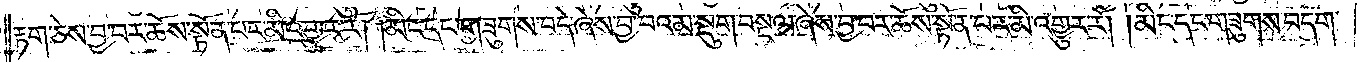རྟག་ཅེས་བྱ་བར་ཆོས་སྟོན་པར་མི་འགྱུར་རོ། །མིང་དང་གཟུགས་བདེ་ཞེས་བྱ་བའམ་སྡུག་བསྔལ་ཞེས་བྱ་བར་ཆོས་སྟོན་པར་མི་འགྱུར་རོ། །མིང་དང་གཟུགས་བདག་
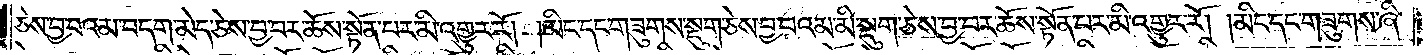ཅེས་བྱ་བའམ་བདག་མེད་ཅེས་བྱ་བར་ཆོས་སྟོན་པར་མི་འགྱུར་རོ། །མིང་དང་གཟུགས་སྡུག་ཅེས་བྱ་བའམ་མི་སྡུག་ཅེས་བྱ་བར་ཆོས་སྟོན་པར་མི་འགྱུར་རོ། །མིང་དང་གཟུགས་ཞི་
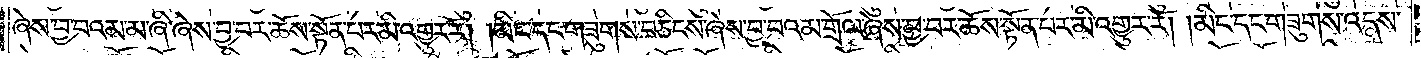ཞེས་བྱ་བའམ་མ་ཞི་ཞེས་བྱ་བར་ཆོས་སྟོན་པར་མི་འགྱུར་རོ། །མིང་དང་གཟུགས་བཅིངས་ཞེས་བྱ་བའམ་གྲོལ་ཞེས་བྱ་བར་ཆོས་སྟོན་པར་མི་འགྱུར་རོ། །མིང་དང་གཟུགས་འདས་
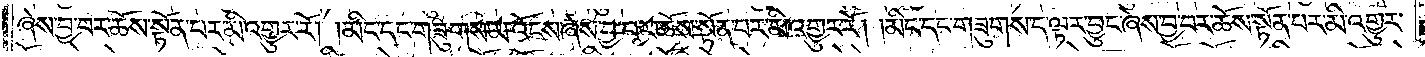ཞེས་བྱ་བར་ཆོས་སྟོན་པར་མི་འགྱུར་རོ། །མིང་དང་གཟུགས་མ་འོངས་ཞེས་བྱ་བར་ཆོས་སྟོན་པར་མི་འགྱུར་རོ། །མིང་དང་གཟུགས་ད་ལྟར་བྱུང་ཞེས་བྱ་བར་ཆོས་སྟོན་པར་མི་འགྱུར་
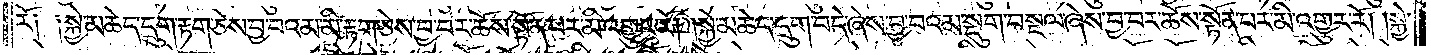རོ༑ ༑སྐྱེ་མཆེད་དྲུག་རྟག་ཅེས་བྱ་བའམ་མི་རྟག་ཅེས་བྱ་བར་ཆོས་སྟོན་པར་མི་འགྱུར་རོ། །སྐྱེ་མཆེད་དྲུག་བདེ་ཞེས་བྱ་བའམ་སྡུག་བསྔལ་ཞེས་བྱ་བར་ཆོས་སྟོན་པར་མི་འགྱུར་རོ། །སྐྱེ་
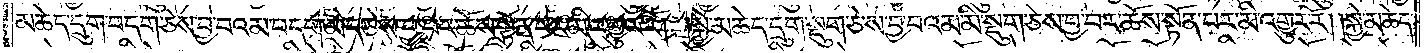མཆེད་དྲུག་བདག་ཅེས་བྱ་བའམ་བདག་མེད་ཅེས་བྱ་བར་ཆོས་སྟོན་པར་མི་འགྱུར་རོ། །སྐྱེ་མཆེད་དྲུག་སྡུག་ཅེས་བྱ་བའམ་མི་སྡུག་ཅེས་བྱ་བར་ཆོས་སྟོན་པར་མི་འགྱུར་རོ། །སྐྱེ་མཆེད་
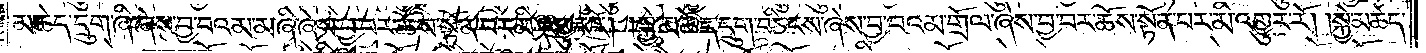མཆེད་དྲུག་ཞི་ཞེས་བྱ་བའམ་མ་ཞི་ཞེས་བྱ་བར་ཆོས་སྟོན་པར་མི་འགྱུར་རོ། །སྐྱེ་མཆེད་དྲུག་བཅིངས་ཞེས་བྱ་བའམ་གྲོལ་ཞེས་བྱ་བར་ཆོས་སྟོན་པར་མི་འགྱུར་རོ། །སྐྱེ་མཆེད་
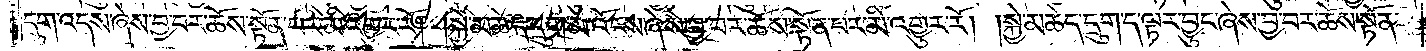དྲུག་འདས་ཞེས་བྱ་བར་ཆོས་སྟོན་པར་མི་འགྱུར་རོ། །སྐྱེ་མཆེད་དྲུག་མ་འོངས་ཞེས་བྱ་བར་ཆོས་སྟོན་པར་མི་འགྱུར་རོ། །སྐྱེ་མཆེད་དྲུག་ད་ལྟར་བྱུང་ཞེས་བྱ་བར་ཆོས་སྟོན་
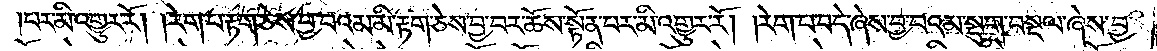པར་མི་འགྱུར་རོ། །རེག་པ་རྟག་ཅེས་བྱ་བའམ་མི་རྟག་ཅེས་བྱ་བར་ཆོས་སྟོན་པར་མི་འགྱུར་རོ། །རེག་པ་བདེ་ཞེས་བྱ་བ་འམ་སྡུག་བསྔལ་ཞེས་བྱ་
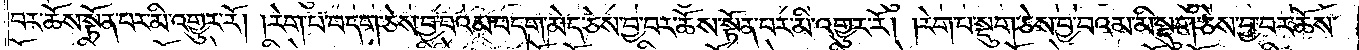བར་ཆོས་སྟོན་པར་མི་འགྱུར་རོ། །རེག་པ་བདག་ཅེས་བྱ་བའམ་བདག་མེད་ཅེས་བྱ་བར་ཆོས་སྟོན་པར་མི་འགྱུར་རོ། །རེག་པ་སྡུག་ཅེས་བྱ་བའམ་མི་སྡུག་ཅེས་བྱ་བར་ཆོས་
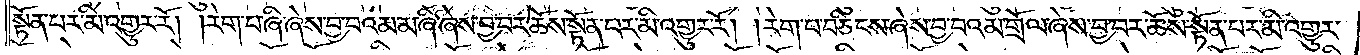སྟོན་པར་མི་འགྱུར་རོ། །རེག་པ་ཞི་ཞེས་བྱ་བའམ་མ་ཞི་ཞེས་བྱ་བར་ཆོས་སྟོན་པར་མི་འགྱུར་རོ། །རེག་པ་བཅིངས་ཞེས་བྱ་བའམ་གྲོལ་ཞེས་བྱ་བར་ཆོས་སྟོན་པར་མི་འགྱུར་
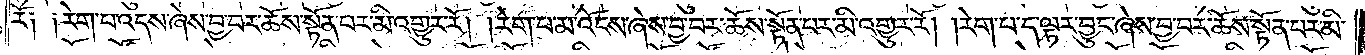རོ༑ ༑རེག་པ་འདས་ཞེས་བྱ་བར་ཆོས་སྟོན་པར་མི་འགྱུར་རོ། །རེག་པ་མ་འོངས་ཞེས་བྱ་བར་ཆོས་སྟོན་པར་མི་འགྱུར་རོ། །རེག་པ་ད་ལྟར་བྱུང་ཞེས་བྱ་བར་ཆོས་སྟོན་པར་མི་
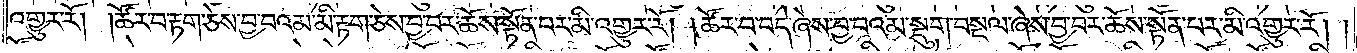འགྱུར་རོ། །ཚོར་བ་རྟག་ཅེས་བྱ་བའམ་མི་རྟག་ཅེས་བྱ་བར་ཆོས་སྟོན་པར་མི་འགྱུར་རོ། །ཚོར་བ་བདེ་ཞེས་བྱ་བའམ་སྡུག་བསྔལ་ཞེས་བྱ་བར་ཆོས་སྟོན་པར་མི་འགྱུར་རོ། །
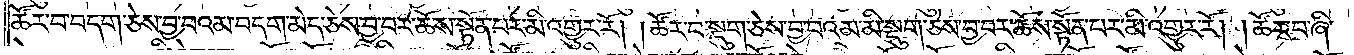ཚོར་བ་བདག་ཅེས་བྱ་བའམ་བདག་མེད་ཅེས་བྱ་བར་ཆོས་སྟོན་པར་མི་འགྱུར་རོ། །ཚོར་བ་སྡུག་ཅེས་བྱ་བའམ་མི་སྡུག་ཅེས་བྱ་བར་ཆོས་སྟོན་པར་མི་འགྱུར་རོ། །ཚོར་བ་ཞི་
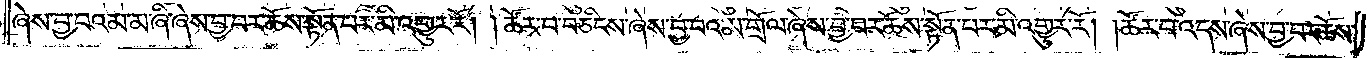ཞེས་བྱ་བའམ་མ་ཞི་ཞེས་བྱ་བར་ཆོས་སྟོན་པར་མི་འགྱུར་རོ། །ཚོར་བ་བཅིངས་ཞེས་བྱ་བའམ་གྲོལ་ཞེས་བྱ་བར་ཆོས་སྟོན་པར་མི་འགྱུར་རོ། །ཚོར་བ་འདས་ཞེས་བྱ་བར་ཆོས་
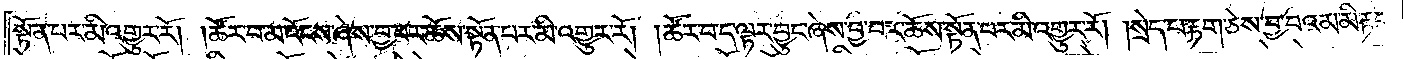སྟོན་པར་མི་འགྱུར་རོ། །ཚོར་བ་མ་འོངས་ཞེས་བྱ་བར་ཆོས་སྟོན་པར་མི་འགྱུར་རོ། །ཚོར་བ་ད་ལྟར་བྱུང་ཞེས་བྱ་བར་ཆོས་སྟོན་པར་མི་འགྱུར་རོ། །སྲེད་པ་རྟག་ཅེས་བྱ་བའམ་མི་རྟག་
